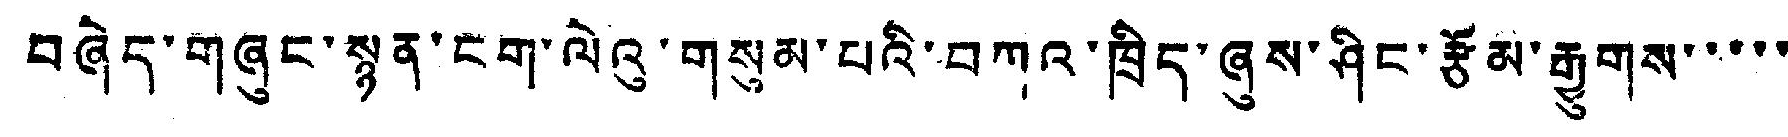བཞེད་གཞུང་སྙན་ངག་ལེའུ་གསུམ་པའི་བཀའ་ཁྲིད་ཞུས་ཤིང་རྩོམ་རྒྱུགས་་་་་
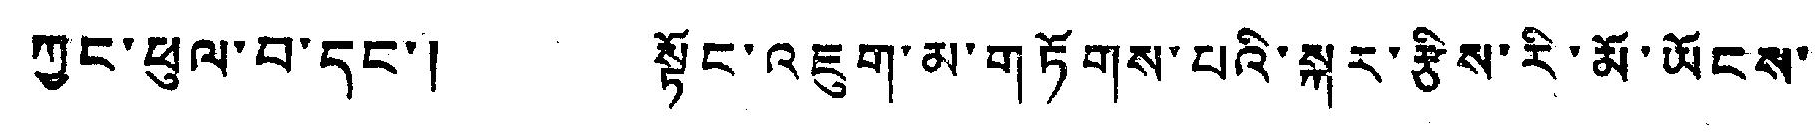ཀྱང་ཕུལ་བ་དང་། སྟོང་འཇུག་མ་གཏོགས་པའི་སྐར་རྩིས་རི་མོ་ཡོངས་
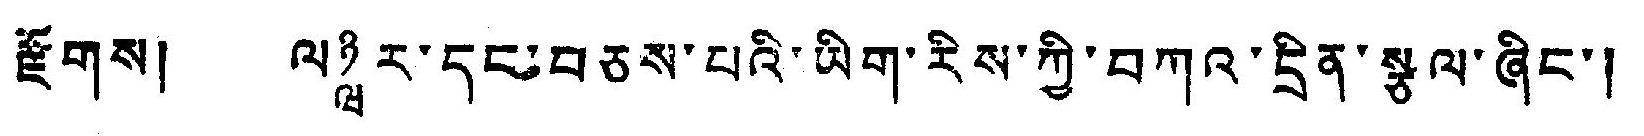རྫོགས། ལཉྺར་དང་བཅས་པའི་ཡིག་རིས་ཀྱི་བཀའ་དྲིན་སྩལ་ཞིང་། དེ་
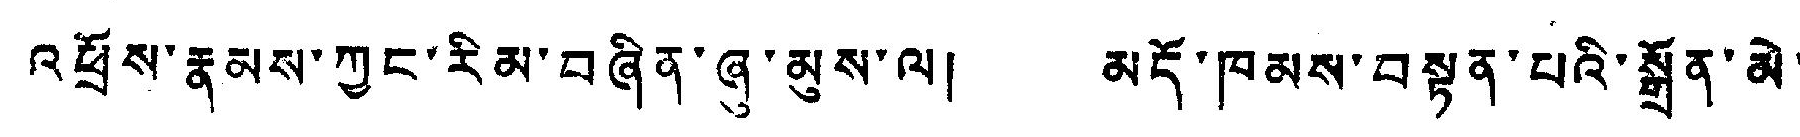འཕྲོས་རྣམས་ཀྱང་རིམ་བཞིན་ཞུ་མུས་ལ། མདོ་ཁམས་བསྟན་པའི་སྒྲོན་མེ་
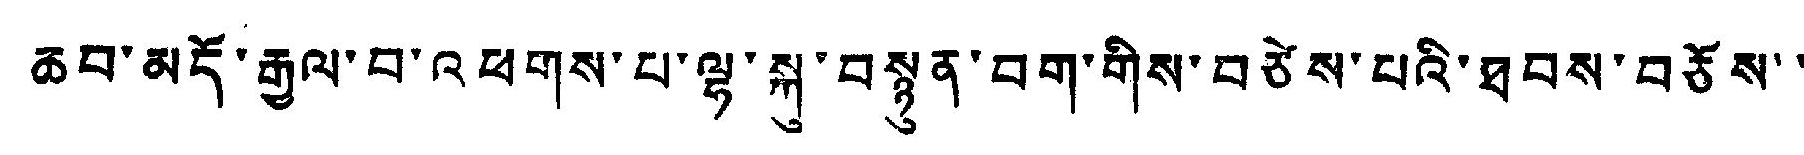ཆབ་མདོ་རྒྱལ་བ་འཕགས་པ་ལྷ་སྐུ་བསྙན་བག་གིས་བཙེས་པའི་ཐབས་བཅོས་་
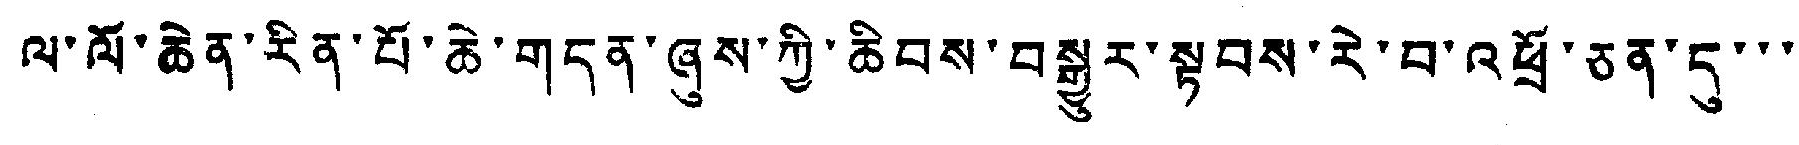ལ་ལོ་ཆེན་རིན་པོ་ཆེ་གདན་ཞུས་ཀྱི་ཆིབས་བསྒྱུར་སྟབས་རེ་བ་འཕྲོ་ཅན་དུ་་་
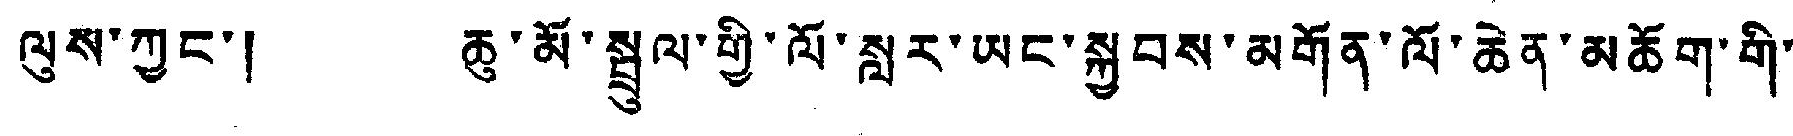ལུས་ཀྱང་། ཆུ་མོ་སྦྲུལ་གྱི་ལོ་སླར་ཡང་སྐྱབས་མགོན་ལོ་ཆེན་མཆོག་གི་
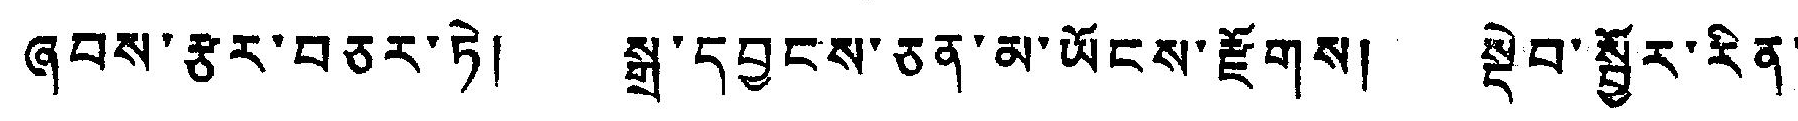ཞབས་རྩར་བཅར་ཏེ། སྒྲ་དབྱངས་ཅན་མ་ཡོངས་རྫོགས། སྡེབ་སྦྱོར་རིན་
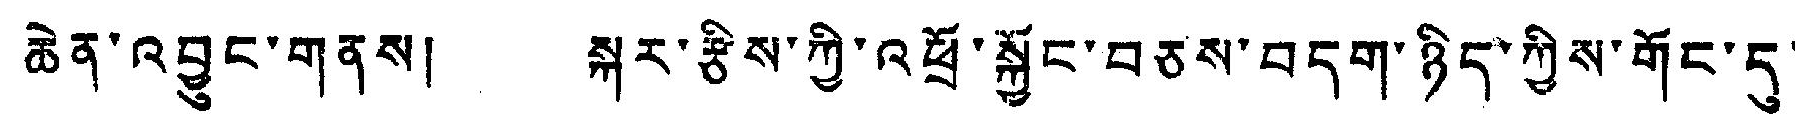ཆེན་འབྱུང་གནས། སྐར་རྩིས་ཀྱི་འཕྲོ་སྐྱོང་བཅས་བདག་ཉིད་ཀྱིས་གོང་དུ་
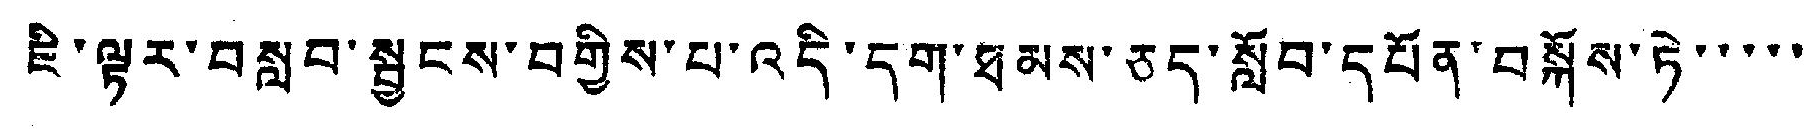ཇི་ལྟར་བསླབ་སྦྱངས་བགྱིས་པ་འདི་དག་ཐམས་ཅད་སློབ་དཔོན་བསྐོས་ཏེ་་་་་
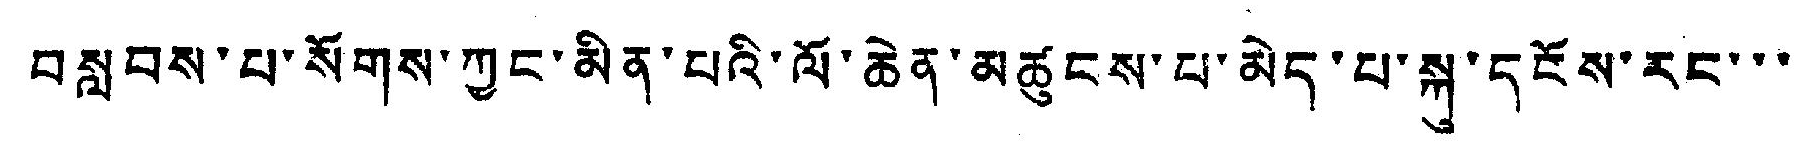བསླབས་པ་སོགས་ཀྱང་མིན་པའི་ལོ་ཆེན་མཚུངས་པ་མེད་པ་སྐུ་དངོས་རང་་་
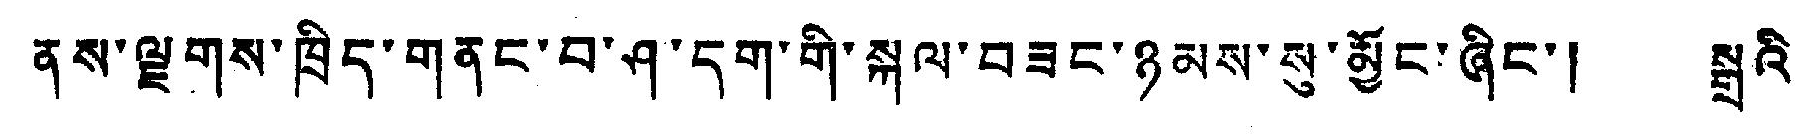ནས་ལྗགས་ཁྲིད་གནང་བ་ཤ་དག་གི་སྐལ་བཟང་ཉམས་སུ་མྱོང་ཞིང་། སྦྲའི་
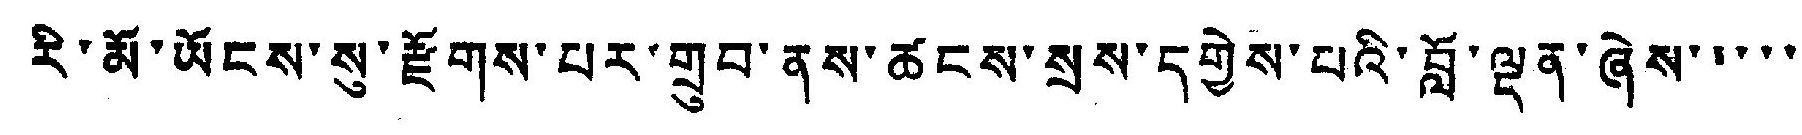རི་མོ་ཡོངས་སུ་རྫོགས་པར་གྲུབ་ནས་ཚངས་སྲས་དགྱེས་པའི་བློ་ལྡན་ཞེས་་་་་
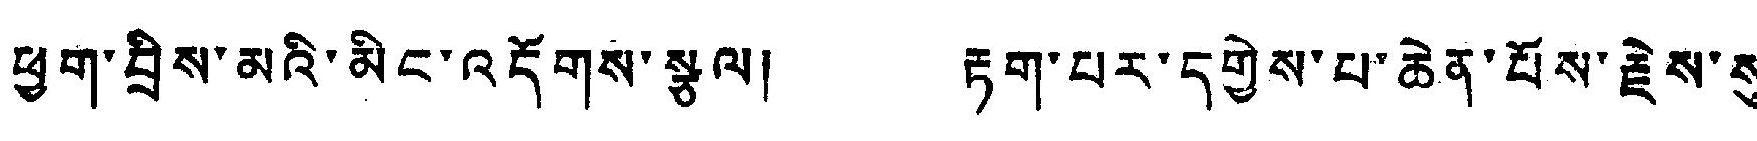ཕྱག་བྲིས་མའི་མིང་འདོགས་སྩལ། རྟག་པར་དགྱེས་པ་ཆེན་པོས་རྗེས་སུ་
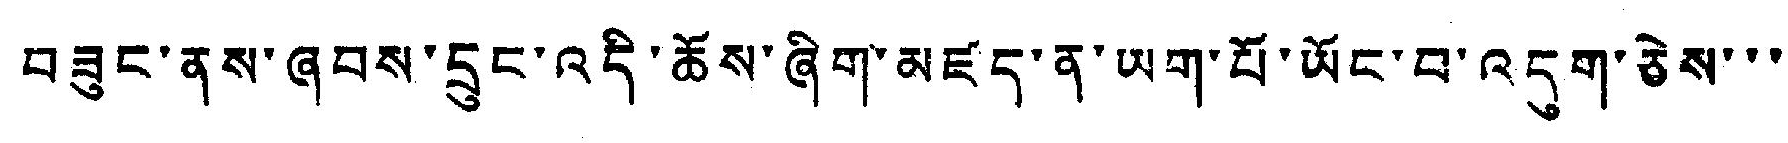བཟུང་ནས་ཞབས་དྲུང་འདི་ཆོས་ཞིག་མཛད་ན་ཡག་པོ་ཡོང་བ་འདུག་ཅེས་་་
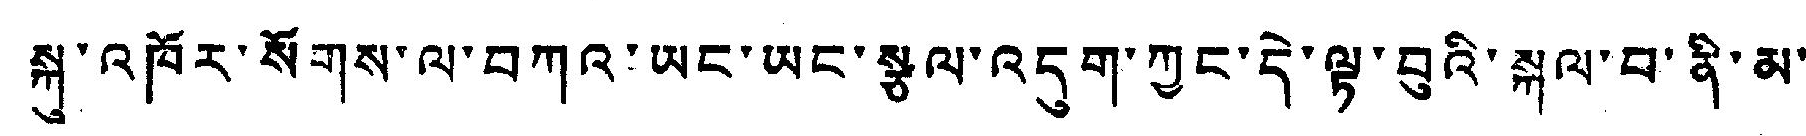སྐུ་འཁོར་སོགས་ལ་བཀའ་ཡང་ཡང་སྩལ་འདུག་ཀྱང་དེ་ལྟ་བུའི་སྐལ་བ་ནི་མ་
